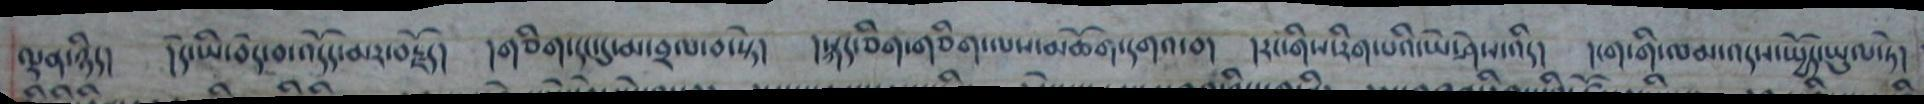ལྡན་ཉིད། །དེ་ཡི་བདེ་བ་འདོད་མར་བརྗོད། །གཅིག་དང་དུ་མ་བྲལ་བ་སྟེ། །སྐད་ཅིག་གཅིག་ལས་མཆོག་དགའ་བ། །རང་གིས་རིག་པའི་ཡེ་ཤེས་འདི། །ངག་གི་ལམ་འདས་སྤྱོད་ཡུལ་ཏེ།
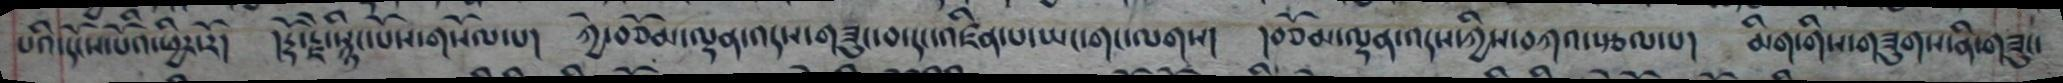པའི་དངོས་པོའི་ཕྱིར་རོ། །རྡོ་རྗེ་སྙིང་པོས་གསོལ་པ། ཀྱེ་བཅོམ་ལྡན་འདས་གཟུང་བ་དང་འཛིན་པ་ཡང་གང་ལགས། །བཅོམ་ལྡན་འདས་ཀྱིས་བཀའ་སྩལ་པ། མིག་གིས་གཟུགས་ནི་གཟུང་
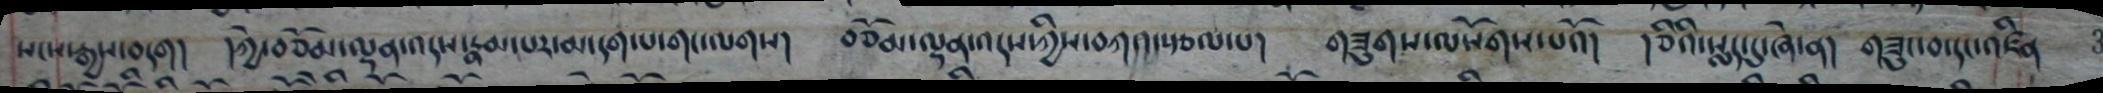སངས་རྒྱས་བདག། །ཀྱེ་བཅོམ་ལྡན་འདས་རྣམ་པར་མ་དག་པ་གང་ལགས། བཅོམ་ལྡན་འདས་ཀྱིས་བཀའ་སྩལ་པ། །གཟུགས་ལསོགས་པའོ། །ཅིའི་སླད་དུ་ཞེ་ན། གཟུང་བ་དང་འཛིན
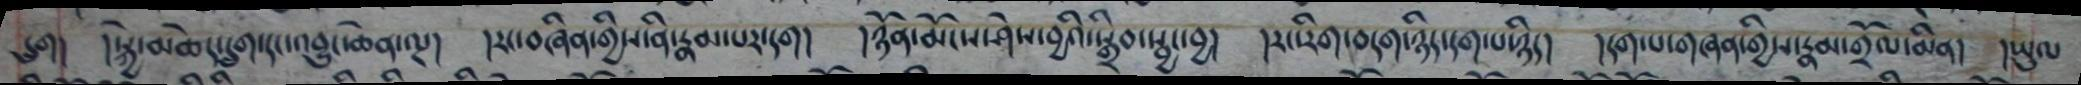དྲུག། །སྐྱེ་མཆེད་དྲུག་དང་འབྱུང་ཆེན་ལྔ། །རང་བཞིན་གྱིས་ནི་རྣམ་པར་དག། །ཉོན་མོངས་ཤེས་བྱའི་སྒྲིབ་སྦྱང་བྱ། །རང་རིག་བདག་ཉིད་དག་པ་ཉིད། །དག་པ་གཞན་གྱིས་རྣམ་གྲོལ་མིན། །ཡུལ
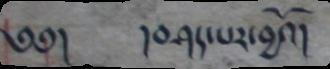༄༅། །བཤད་པར་བྱའོ།
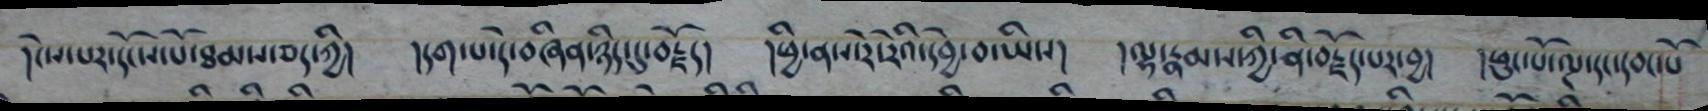།ངེས་པར་དངོས་པོ་ཐམས་ཅད་ཀྱི། །དག་པ་དེ་བཞིན་ཉིད་དུ་བརྗོད། །ཕྱི་ནས་རེ་རེའི་དབྱེ་བ་ཡིས། །ལྷ་རྣམས་ཀྱི་ནི་བརྗོད་པར་བྱ། །ཕུང་པོ་ལྔ་དང་དབང་པོ
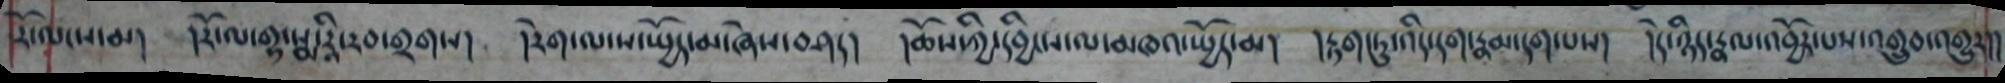རོ་ལངས་མ། །རོ་ལ་གྷ་སྨ་རཱི་རབ་གྲགས། །རེག་ལ་ས་སྤྱོད་མ་ཞེས་བཤད། །ཆོས་ཀྱི་དབྱིངས་ལ་མཁའ་སྤྱོད་མ། །རྟག་ཏུ་འདི་དག་རྣམ་དག་པས། །དེ་ཉིད་རྣལ་འབྱོར་པས་གྲུབ་འགྱུར།།
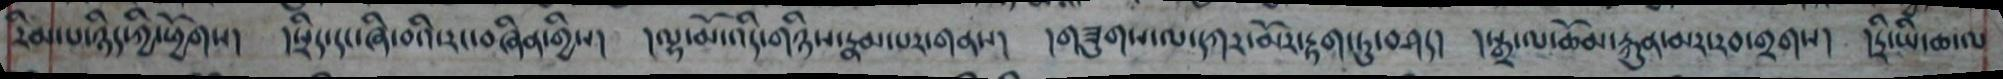རིམ་པ་ཉིད་ཀྱི་ཕྱོགས། །སྲིད་དང་ཞི་བའི་རང་བཞིན་གྱིས། །ལྷ་མོ་འདི་གཉིས་རྣམ་པར་གནས། །གཟུགས་ལ་དཀར་མོར་རྟག་ཏུ་བཤད། །སྒྲ་ལ་ཆོམ་རྐུན་མར་རབ་གྲགས། །དྲི་ཡི་ཆ་ལ
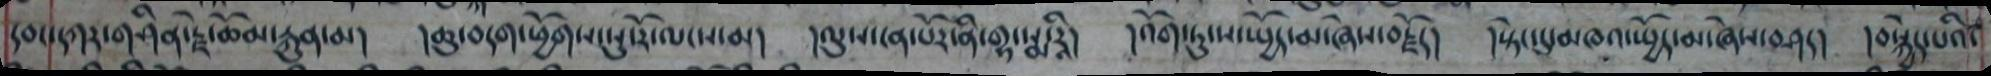དབང་དཀར་གཤིན་རྗེ་ཆོམ་རྐུན་མ། །ཆུ་བདག་ཕྱོགས་སུ་རོ་ལངས་མ། །ལུས་ངན་པོར་ནི་གྷ་སྨ་རཱི། །འོག་ཏུ་ས་སྤྱོད་མ་ཞེས་བརྗོད། །སྟེང་དུ་མཁའ་སྤྱོད་མ་ཞེས་བཤད། །བསྐྱེད་པའི་
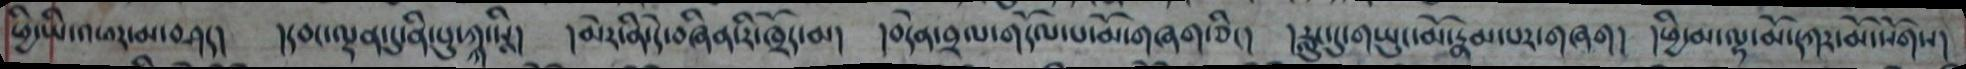ཕྱི་ཡི་འཕར་མ་བཤད། །དབང་ལྡན་དུ་ནི་པུ་ཀྐ་སཱི། །མེར་ནི་དེ་བཞིན་རི་ཁྲོད་མ། །བདེན་བྲལ་གདོལ་པ་མོ་གཞག་ཅིང། །རླུང་དུ་གཡུང་མོ་རྣམ་པར་གཞག། །ཕྱི་མ་ལྷ་མོ་དཀར་མོ་སོགས།
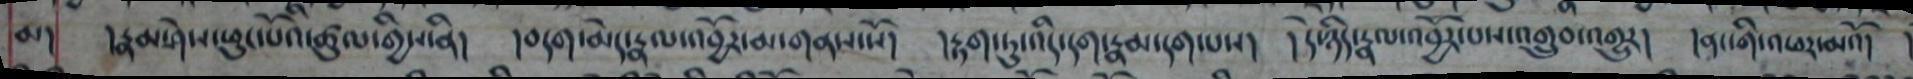མ། །རྣམ་ཤེས་ཕུང་པོའི་ཚུལ་གྱིས་ནི། །བདག་མེད་རྣལ་འབྱོར་མ་གནས་སོ། །རྟག་ཏུ་འདི་དག་རྣམ་དག་པས། །དེ་ཉིད་རྣལ་འབྱོར་པས་འགྲུབ་འགྱུར། །ནང་གི་འཕར་མའོ།
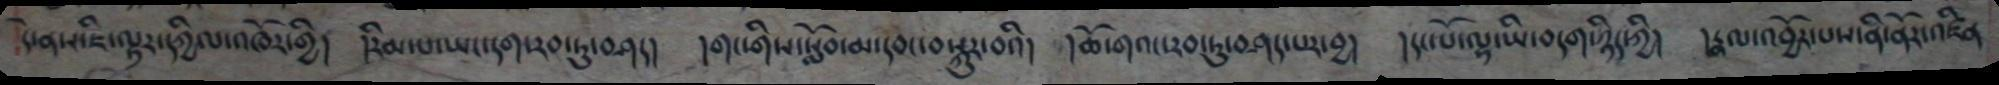དེ་ནས་ཇི་ལྟར་དཀྱིལ་འཁོར་གྱི། །རིམ་པ་ཡང་དག་རབ་ཏུ་བཤད། །གང་གིད་སློབ་མ་དབང་བསྐུར་བའི། །ཆོ་གའང་རབ་ཏུ་བཤད་པར་བྱ། །དང་པོ་ལྷ་ཡི་བདག་ཉིད་ཀྱི། །རྣལ་འབྱོར་པས་ནི་ནོར་འཛིན
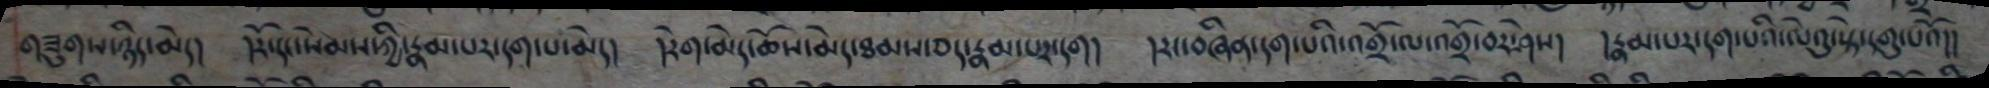གཟུགས་ཉིད་མེད། །རོ་དང་སེམས་ཀྱི་རྣམ་པར་དག་པ་མེད། །རེག་མེད་ཆོས་མེད་ཐམད་ཅད་རྣམ་པར་དག། །རང་བཞིན་དག་པའི་འགྲོ་ལ་འགྲོ་བར་ཤེས། །རྣམ་པར་དག་པའི་ལེའུ་སྟེ་དགུ་པའོ།།
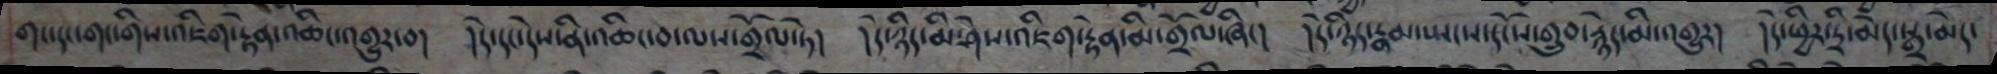གང་དང་གང་གིས་འཇིག་རྟེན་འཆིང་འགྱུར་བ། །དེ་དང་དེས་ནི་འཆིང་བ་ལས་གྲོལ་ཏེ། །དེ་ཉིད་མི་ཤེས་འཇིག་རྟེན་མི་གྲོལ་ཞིང། །དེ་ཉིད་རྣམ་སྤངས་དངོས་གྲུབ་རྙེད་མི་འགྱུར། །དེ་ཕྱིར་དྲི་མེད་སྒྲ་མེད་
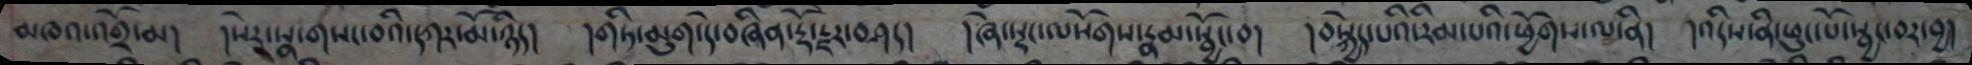མཁའ་འགྲོ་མ། །སེར་སྣ་གསང་བའི་དཀར་མོ་ཉིད། །གཏི་མུག་དེ་བཞིན་རྡོ་རྗེར་བཤད། །ཞེ་སྡང་ལསོགས་རྣམ་སྦྱོང་བ། །བསྐྱེད་པའི་རིམ་པའི་ཕྱོགས་ལ་ནི། །འདིས་ནི་ཕུང་པོ་སྦྱང་བར་བྱ།
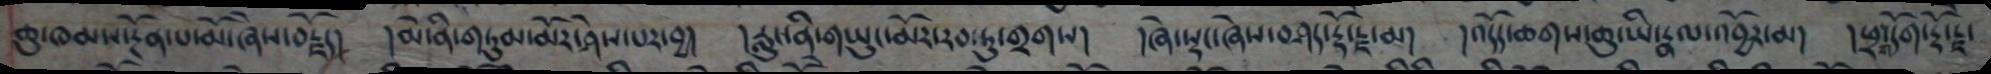ཆུ་ཁམས་རྔོན་མོ་ཞེས་བརྗོད།  །མེ་ནི་གཏུམ་མོར་ཤེས་པར་བྱ།  །རླུང་ནི་གཡུང་མོར་རབ་ཏུ་གྲགས།   །ཞེ་སྡང་ཞེས་བཤད་རྡོ་རྗེ་མ།   །འདོད་ཆགས་ཆུ་ཡི་འབྱོར་མ།   ། ཕྲག་དོག་རྡོ་རྗེ་
